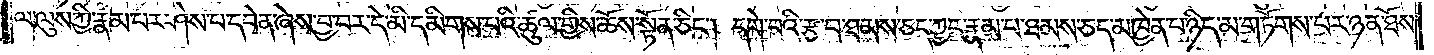ལ་ལུས་ཀྱི་རྣམ་པར་ཤེས་པ་དབེན་ཞེས་བྱ་བར་དེ་མི་དམིགས་པའི་ཚུལ་གྱིས་ཆོས་སྟོན་ཅིང༌། དགེ་བའི་རྩ་བ་ཐམས་ཅད་ཀྱང་རྣམ་པ་ཐམས་ཅད་མཁྱེན་པ་ཉིད་མ་གཏོགས་པར་ཉན་ཐོས་
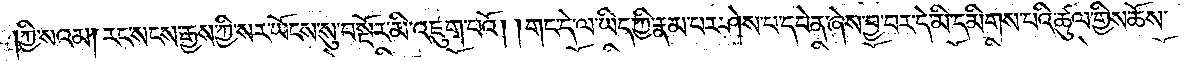ཀྱི་སའམ། རང་སངས་རྒྱས་ཀྱི་སར་ཡོངས་སུ་བསྔོར་མི་འཇུག་པའོ། །གང་དེ་ལ་ཡིད་ཀྱི་རྣམ་པར་ཤེས་པ་དབེན་ཞེས་བྱ་བར་དེ་མི་དམིགས་པའི་ཚུལ་གྱིས་ཆོས་
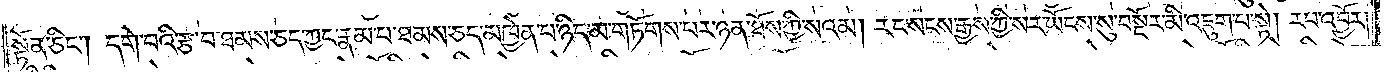སྟོན་ཅིང༌། དགེ་བའི་རྩ་བ་ཐམས་ཅད་ཀྱང་རྣམ་པ་ཐམས་ཅད་མཁྱེན་པ་ཉིད་མ་གཏོགས་པར་ཉན་ཐོས་ཀྱི་སའམ། རང་སངས་རྒྱས་ཀྱི་སར་ཡོངས་སུ་བསྔོར་མི་འཇུག་པ་སྟེ། རབ་འབྱོར།
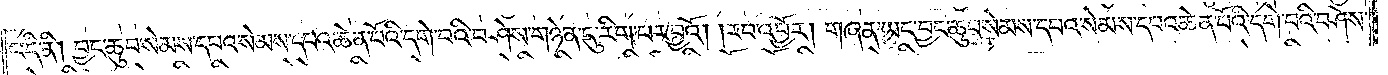འདི་ནི། བྱང་ཆུབ་སེམས་དཔའ་སེམས་དཔའ་ཆེན་པོའི་དགེ་བའི་བཤེས་གཉེན་དུ་རིག་པར་བྱའོ། །རབ་འབྱོར། གཞན་ཡང་བྱང་ཆུབ་སེམས་དཔའ་སེམས་དཔའ་ཆེན་པོའི་དགེ་བའི་བཤེས་
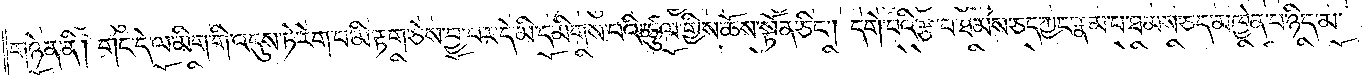གཉེན་ནི། གང་དེ་ལ་མིག་གི་འདུས་ཏེ་རེག་པ་མི་རྟག་ཅེས་བྱ་བར་དེ་མི་དམིགས་པའི་ཚུལ་གྱིས་ཆོས་སྟོན་ཅིང༌། དགེ་བའི་རྩ་བ་ཐམས་ཅད་ཀྱང་རྣམ་པ་ཐམས་ཅད་མཁྱེན་པ་ཉིད་མ་
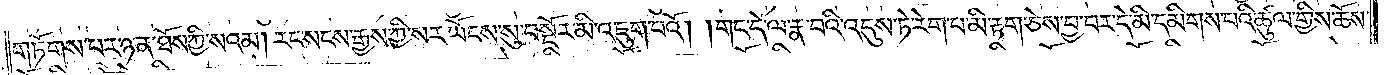གཏོགས་པར་ཉན་ཐོས་ཀྱི་སའམ། རང་སངས་རྒྱས་ཀྱི་སར་ཡོངས་སུ་བསྔོར་མི་འཇུག་པའོ། །གང་དེ་ལ་རྣ་བའི་འདུས་ཏེ་རེག་པ་མི་རྟག་ཅེས་བྱ་བར་དེ་མི་དམིགས་པའི་ཚུལ་གྱིས་ཆོས་
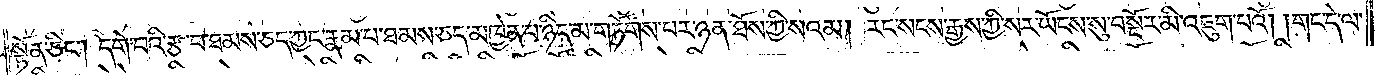སྟོན་ཅིང༌། དགེ་བའི་རྩ་བ་ཐམས་ཅད་ཀྱང་རྣམ་པ་ཐམས་ཅད་མཁྱེན་པ་ཉིད་མ་གཏོགས་པར་ཉན་ཐོས་ཀྱི་སའམ། རང་སངས་རྒྱས་ཀྱི་སར་ཡོངས་སུ་བསྔོར་མི་འཇུག་པའོ། །གང་དེ་ལ་
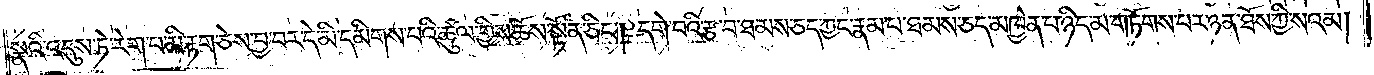སྣའི་འདུས་ཏེ་རེག་པ་མི་རྟག་ཅེས་བྱ་བར་དེ་མི་དམིགས་པའི་ཚུལ་གྱིས་ཆོས་སྟོན་ཅིང༌། དགེ་བའི་རྩ་བ་ཐམས་ཅད་ཀྱང་རྣམ་པ་ཐམས་ཅད་མཁྱེན་པ་ཉིད་མ་གཏོགས་པར་ཉན་ཐོས་ཀྱི་སའམ།
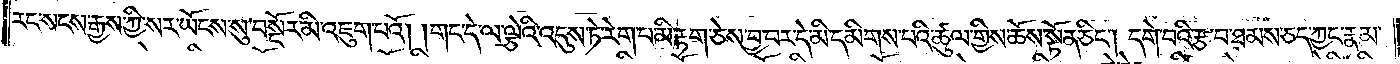རང་སངས་རྒྱས་ཀྱི་སར་ཡོངས་སུ་བསྔོར་མི་འཇུག་པའོ། །གང་དེ་ལ་ལྕེའི་འདུས་ཏེ་རེག་པ་མི་རྟག་ཅེས་བྱ་བར་དེ་མི་དམིགས་པའི་ཚུལ་གྱིས་ཆོས་སྟོན་ཅིང༌། དགེ་བའི་རྩ་བ་ཐམས་ཅད་ཀྱང་རྣམ་
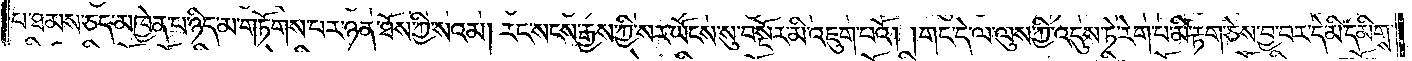པ་ཐམས་ཅད་མཁྱེན་པ་ཉིད་མ་གཏོགས་པར་ཉན་ཐོས་ཀྱི་སའམ། རང་སངས་རྒྱས་ཀྱི་སར་ཡོངས་སུ་བསྔོར་མི་འཇུག་པའོ། །གང་དེ་ལ་ལུས་ཀྱི་འདུས་ཏེ་རེག་པ་མི་རྟག་ཅེས་བྱ་བར་དེ་མི་དམིགས་
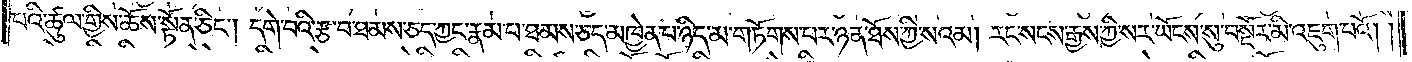པའི་ཚུལ་གྱིས་ཆོས་སྟོན་ཅིང༌། དགེ་བའི་རྩ་བ་ཐམས་ཅད་ཀྱང་རྣམ་པ་ཐམས་ཅད་མཁྱེན་པ་ཉིད་མ་གཏོགས་པར་ཉན་ཐོས་ཀྱི་སའམ། རང་སངས་རྒྱས་ཀྱི་སར་ཡོངས་སུ་བསྔོར་མི་འཇུག་པའོ། །
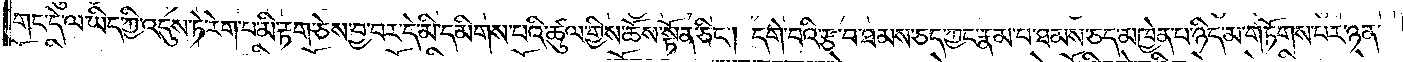གང་དེ་ལ་ཡིད་ཀྱི་འདུས་ཏེ་རེག་པ་མི་རྟག་ཅེས་བྱ་བར་དེ་མི་དམིགས་པའི་ཚུལ་གྱིས་ཆོས་སྟོན་ཅིང༌། དགེ་བའི་རྩ་བ་ཐམས་ཅད་ཀྱང་རྣམ་པ་ཐམས་ཅད་མཁྱེན་པ་ཉིད་མ་གཏོགས་པར་ཉན་
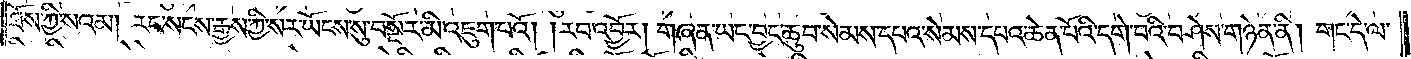ཐོས་ཀྱི་སའམ། རང་སངས་རྒྱས་ཀྱི་སར་ཡོངས་སུ་བསྔོར་མི་འཇུག་པའོ། །རབ་འབྱོར། གཞན་ཡང་བྱང་ཆུབ་སེམས་དཔའ་སེམས་དཔའ་ཆེན་པོའི་དགེ་བའི་བཤེས་གཉེན་ནི། གང་དེ་ལ་
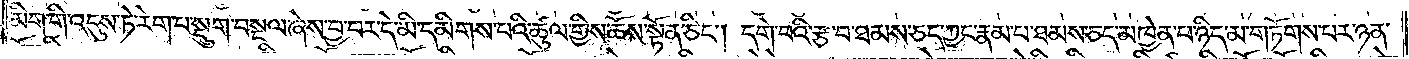མིག་གི་འདུས་ཏེ་རེག་པ་སྡུག་བསྔལ་ཞེས་བྱ་བར་དེ་མི་དམིགས་པའི་ཚུལ་གྱིས་ཆོས་སྟོན་ཅིང༌། དགེ་བའི་རྩ་བ་ཐམས་ཅད་ཀྱང་རྣམ་པ་ཐམས་ཅད་མཁྱེན་པ་ཉིད་མ་གཏོགས་པར་ཉན་
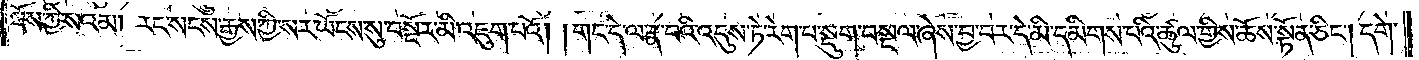ཐོས་ཀྱི་སའམ། རང་སངས་རྒྱས་ཀྱི་སར་ཡོངས་སུ་བསྔོར་མི་འཇུག་པའོ། །གང་དེ་ལ་རྣ་བའི་འདུས་ཏེ་རེག་པ་སྡུག་བསྔལ་ཞེས་བྱ་བར་དེ་མི་དམིགས་པའི་ཚུལ་གྱིས་ཆོས་སྟོན་ཅིང༌། དགེ་
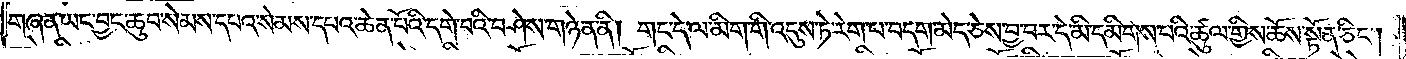གཞན་ཡང་བྱང་ཆུབ་སེམས་དཔའ་སེམས་དཔའ་ཆེན་པོའི་དགེ་བའི་བཤེས་གཉེན་ནི། གང་དེ་ལ་མིག་གི་འདུས་ཏེ་རེག་པ་བདག་མེད་ཅེས་བྱ་བར་དེ་མི་དམིགས་པའི་ཚུལ་གྱིས་ཆོས་སྟོན་ཅིང༌།
